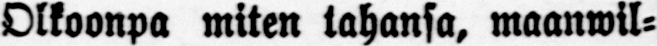Olkoonpa miten tahansa, maanwil-
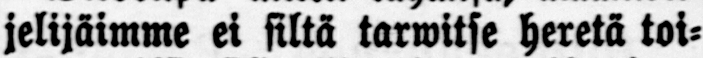jelijäimme ei siltä tarwitse heretä toi-
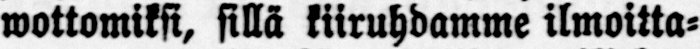wottomiksi, sillä kiiruhdamme ilmoitta-
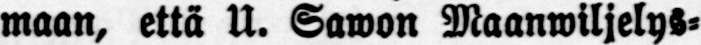maan, että U. Sawon Maanwiljelys-
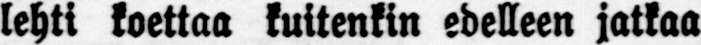lehti koettaa kuitenkin edelleen jatkaa
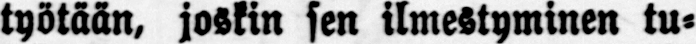työtään, joskin sen ilmestyminen tu-
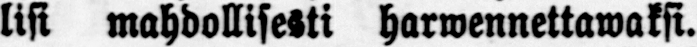lisi mahdollisesti harwennettawaksi.
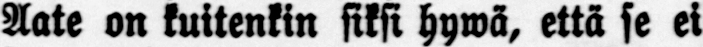Aate on kuitenkin siksi hywä, että se ei
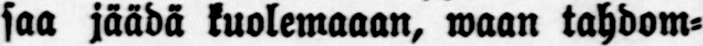saa jäädä kuolemaaan, waan tahdom-
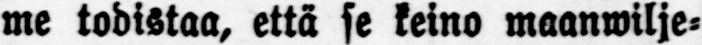me todistaa, että se keino maanwilje-
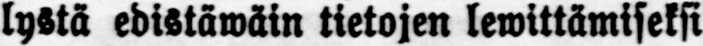lystä edistäwäin tietojen lewittämiseksi
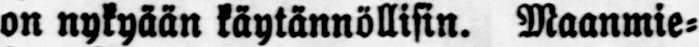on nykyään käytännöllisin. Maanmie-
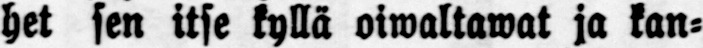het sen itse kyllä oiwaltavat ja kan-
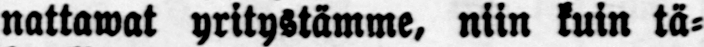nattawat yritystämme, niin kuin tä-
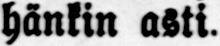hänkin asti.
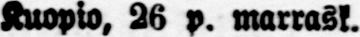Kuopio, 26 p. marrask.
